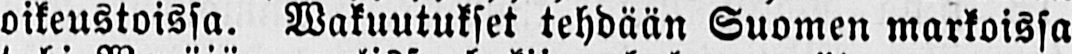oikeustoissa. Wakuutukset tehdään Suomen markoissa
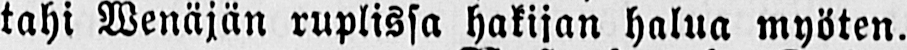tahi Wenäjän ruplissa hakijan halua myöten.
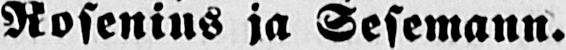Rosenins ja Sesemann.
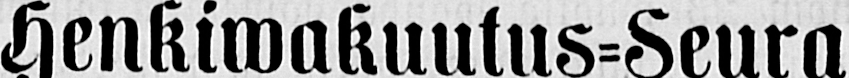Henkiwakuutus-Seura
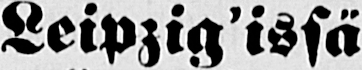Leipzig'issä
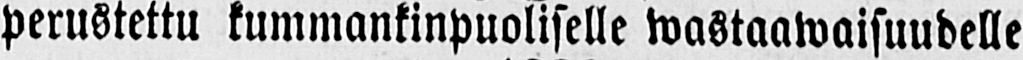perustettu kummankinpuoliselle wastaawaisuudelle
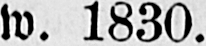w. 1830.
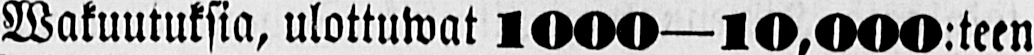Makuutuksia, ulottuwat 1000-10,000 :teen
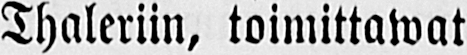Thaleriin, toimittawat
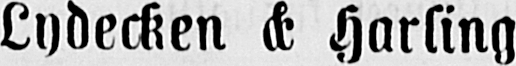Lydecken & Harling
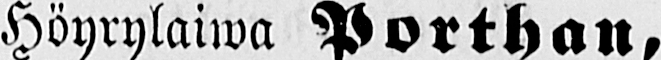Höyrylaiwa Porthan,
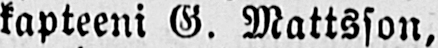kapteeni G. Mattsson,
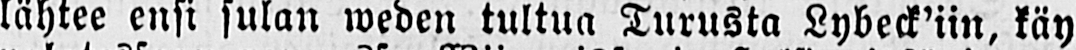lähtee ensi sulan weden tultua Turusta Lydeck'iin, käy
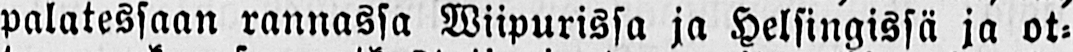palatessaan rannassa Wiipurissa ja Helsingissä ja ot-
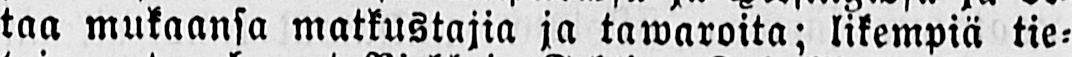taa mukaansa matkustajia ja tawaroita; likempiä tie-
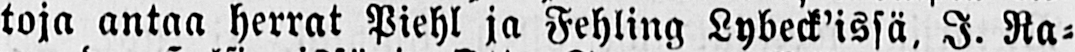toja antaa herrat Piehl ja Fehling Lybeck'issä. I. Ra-
